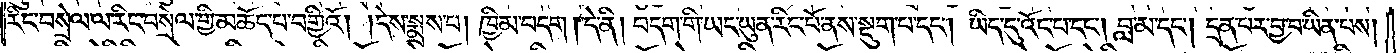རིང་བསྲེལ་ལ་རིང་བསྲེལ་གྱི་མཆོད་པ་བགྱིའོ། །དེས་སྨྲས་པ། ཁྱིམ་བདག །དེ་ནི། བདག་གི་ཡང་ཡུན་རིང་པོ་ནས་སྡུག་པ་དང༌། ཡིད་དུ་འོང་བ་དང༌། བླ་མ་དང༌། དྲན་པར་བྱ་བ་ཡིན་པས།
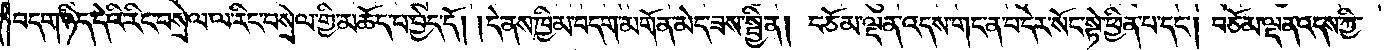བདག་ཉིད་དེའི་རིང་བསྲེལ་ལ་རིང་བསྲེལ་གྱི་མཆོད་པ་བྱེད་དོ། །དེ་ནས་ཁྱིམ་བདག་མགོན་མེད་ཟས་སྦྱིན། བཅོམ་ལྡན་འདས་གང་ན་བ་དེར་སོང་སྟེ་ཕྱིན་པ་དང༌། བཅོམ་ལྡན་འདས་ཀྱི་
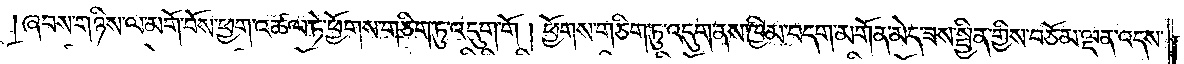ཞབས་གཉིས་ལ་མགོ་བོས་ཕྱག་འཚལ་ཏེ་ཕྱོགས་གཅིག་ཏུ་འདུག་གོ །ཕྱོགས་གཅིག་ཏུ་འདུག་ནས་ཁྱིམ་བདག་མགོན་མེད་ཟས་སྦྱིན་གྱིས་བཅོམ་ལྡན་འདས་
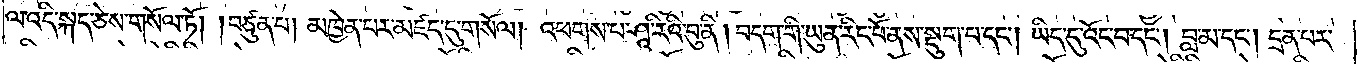ལ་འདི་སྐད་ཅེས་གསོལ་ཏོ། །བཙུན་པ། མཁྱེན་པར་མཛད་དུ་གསོལ། འཕགས་པ་ཤཱ་རིའི་བུ་ནི། བདག་གི་ཡུན་རིང་པོ་ནས་སྡུག་པ་དང༌། ཡིད་དུ་འོང་བ་དང༌། བླ་མ་དང༌། དྲན་པར་
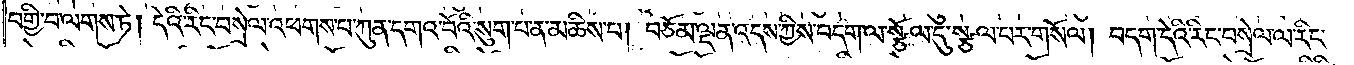བགྱི་བ་ལགས་ཏེ། དེའི་རིང་བསྲེལ་འཕགས་པ་ཀུན་དགའ་བོའི་སུག་པ་ན་མཆིས་པ། བཅོམ་ལྡན་འདས་ཀྱིས་བདག་ལ་སྩོལ་དུ་སྩལ་བར་གསོལ། བདག་དེའི་རིང་བསྲེལ་ལ་རིང་
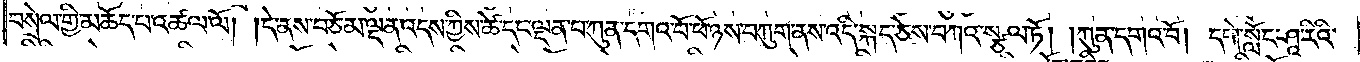བསྲེལ་གྱི་མཆོད་པ་འཚལ་ལོ། །དེ་ནས་བཅོམ་ལྡན་འདས་ཀྱིས་ཚེ་དང་ལྡན་པ་ཀུན་དགའ་བོ་ཕོ་ཉས་བཀུག་ནས་འདི་སྐད་ཅེས་བཀའ་སྩལ་ཏོ། །ཀུན་དགའ་བོ། དགེ་སློང་ཤཱ་རིའི་
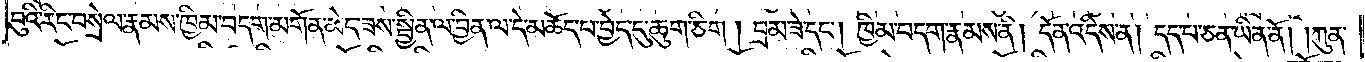བུའི་རིང་བསྲེལ་རྣམས་ཁྱིམ་བདག་མགོན་མེད་ཟས་སྦྱིན་ལ་བྱིན་ལ་དེ་མཆོད་པ་བྱེད་དུ་ཆུག་ཅིག། བྲམ་ཟེ་དང༌། ཁྱིམ་བདག་རྣམས་ནི། དོན་འདིས་ན། དད་པ་ཅན་ཡིན་ནོ། །ཀུན་
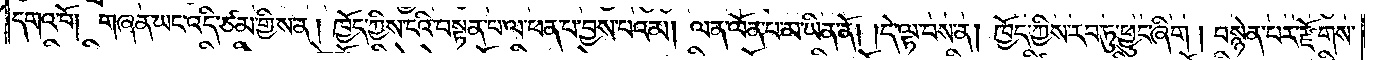དགའ་བོ། གཞན་ཡང་འདི་ཙམ་གྱིས་ན། ཁྱོད་ཀྱིས་ངའི་བསྟན་པ་ལ་ཕན་པ་བྱས་པའམ། ལན་ལོན་པ་མ་ཡིན་ནོ། །དེ་ལྟ་བས་ན། ཁྱོད་ཀྱིས་རབ་ཏུ་ཕྱུང་ཞིག། བསྙེན་པར་རྫོགས་
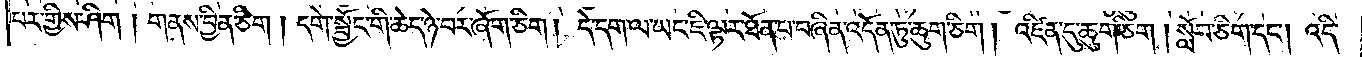བར་གྱིས་ཤིག །གནས་བྱིན་ཅིག །དགེ་སྦྱོང་གི་ཆེད་ཉེ་བར་ཞོག་ཅིག། དེ་དག་ལ་ཡང་ཇི་ལྟར་ཐོན་པ་བཞིན་འདོན་ཏུ་ཆུག་ཅིག། །འཛིན་དུ་ཆུག་ཅིག། སློབ་ཅིག་དང༌། འདི་
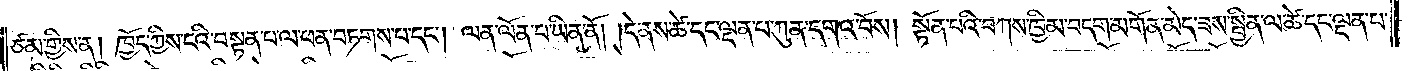ཙམ་གྱིས་ན། ཁྱོད་ཀྱིས་ངའི་བསྟན་པ་ལ་ཕན་བཏགས་པ་དང༌། ལན་ལོན་པ་ཡིན་ནོ། །དེ་ནས་ཚེ་དང་ལྡན་པ་ཀུན་དགའ་བོས། སྟོན་པའི་བཀས་ཁྱིམ་བདག་མགོན་མེད་ཟས་སྦྱིན་ལ་ཚེ་དང་ལྡན་པ་
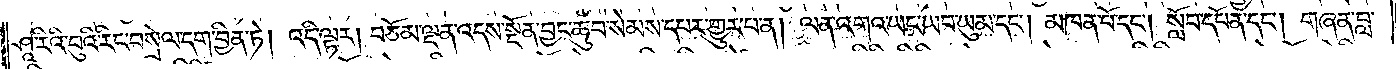ཤཱ་རིའི་བུའི་རིང་བསྲེལ་དག་བྱིན་ཏེ། འདི་ལྟར། བཅོམ་ལྡན་འདས་སྔོན་བྱང་ཆུབ་སེམས་དཔར་གྱུར་པ་ན། ལན་འགའ་ཡང་ཡབ་ཡུམ་དང༌། མཁན་པོ་དང༌། སློབ་དཔོན་དང༌། གཞན་བླ་
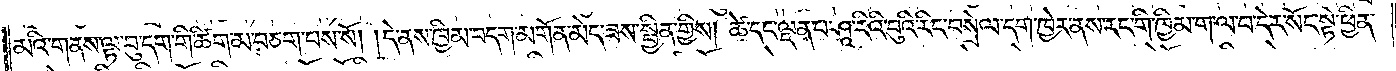མའི་གནས་ལྟ་བུ་དག་གི་ཚིག་མ་བཅག་པས་སོ། །དེ་ནས་ཁྱིམ་བདག་མགོན་མེད་ཟས་སྦྱིན་གྱིས། ཚེ་དང་ལྡན་པ་ཤཱ་རིའི་བུའི་རིང་བསྲེལ་དག་ཁྱེར་ནས་རང་གི་ཁྱིམ་ག་ལ་བ་དེར་སོང་སྟེ་ཕྱིན་
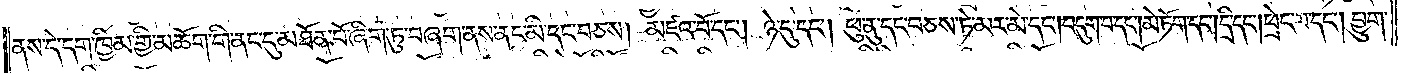ནས་དེ་དག་ཁྱིམ་གྱི་མཆོག་གི་ནང་དུ་མཐོན་པོ་ཞིག་ཏུ་བཞག་ནས་ནང་མི་དང་བཅས། མཛའ་བོ་དང༌། ཉེ་དུ་དང༌། ཕུ་ནུ་དང་བཅས་ཏེ་མར་མེ་དང༌། བདུག་པ་དང༌། མེ་ཏོག་དང༌། དྲི་དང༌། ཕྲེང་བ་དང༌། བྱུག་
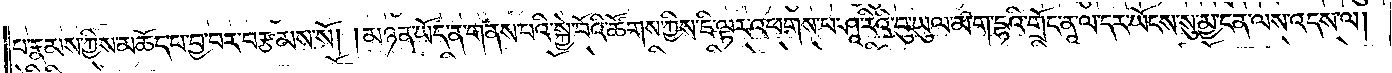པ་རྣམས་ཀྱིས་མཆོད་པ་བྱ་བར་བརྩམས་སོ། །མཉན་ཡོད་ན་གནས་པའི་སྐྱེ་བོའི་ཚོགས་ཀྱིས་ཇི་ལྟར་འཕགས་པ་ཤཱ་རིའི་བུ་ཡུལ་མ་ག་དྷའི་གྲོང་ནཱ་ལ་དར་ཡོངས་སུ་མྱ་ངན་ལས་འདས་ལ།
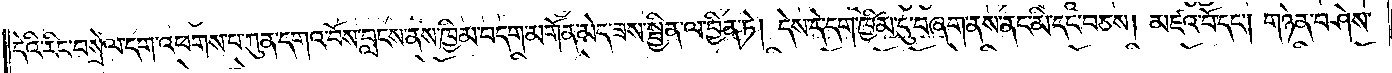དེའི་རིང་བསྲེལ་དག་འཕགས་པ་ཀུན་དགའ་བོས་བླངས་ནས་ཁྱིམ་བདག་མགོན་མེད་ཟས་སྦྱིན་ལ་བྱིན་ཏེ། དེས་དེ་དག་ཁྱིམ་དུ་བཞག་ནས་ནང་མི་དང་བཅས། མཛའ་བོ་དང༌། གཉེན་བཤེས་
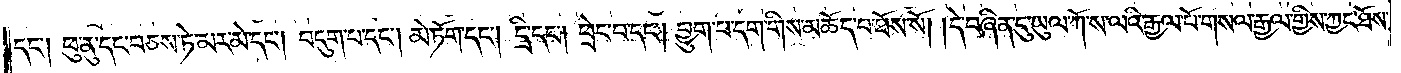དང༌། ཕུ་ནུ་དང་བཅས་ཏེ་མར་མེ་དང༌། བདུག་པ་དང༌། མེ་ཏོག་དང༌། དྲི་དང༌། ཕྲེང་བ་དང༌། བྱུག་པ་དག་གིས་མཆོད་པ་ཐོས་སོ། །དེ་བཞིན་དུ་ཡུལ་ཀོ་ས་ལའི་རྒྱལ་པོ་གསལ་རྒྱལ་གྱིས་ཀྱང་ཐོས་
